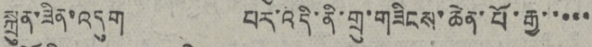སྐྲུན་ཟིན་འདུག པར་འདི་ནི་གྲུ་གཟིངས་ཆེན་པོ་རྒྱ་་་་་
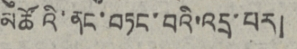མཚོའི་ནང་བཏང་བའི་འདྲ་པར།
